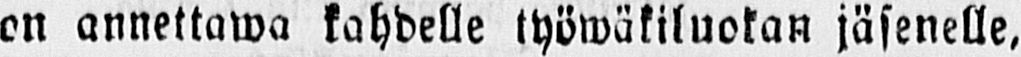on annettawa kahdelle työwäkiluokan jäsenelle,
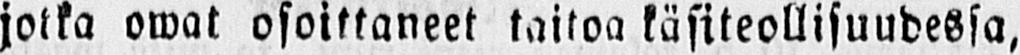jotka owat osoittaneet taitoa käsiteollisuudessa,
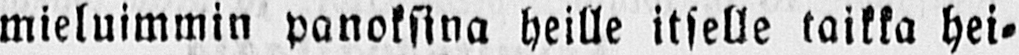mieluimmin panoksina heille itselle taikka hei-
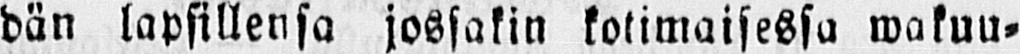dän lapsillensa jossakin kotimaisessa wakuu-
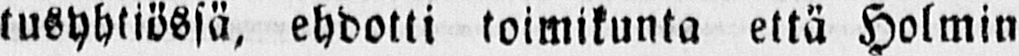tusyhtiössä, ehdotti toimikunta että Holmin
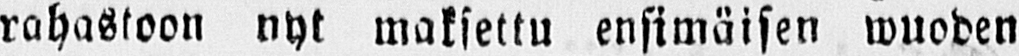rahastoon nyt maksettu ensimäisen wuoden
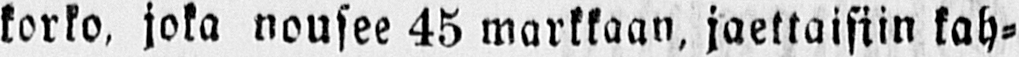korko, joka nousee 45 markkaan, jaettaisiin kah-
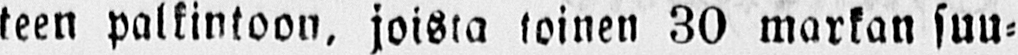teen palkintoon, joista toinen 30 markan suu-
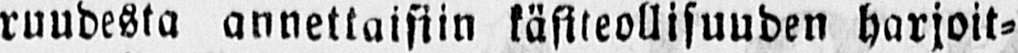ruudesta annettaisiin käsiteollisuuden harjoit-
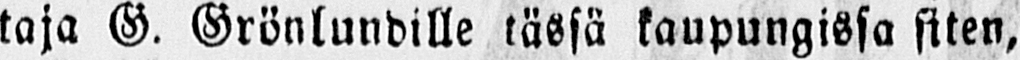taja G. Grönlundille tässä kaupungissa siten,
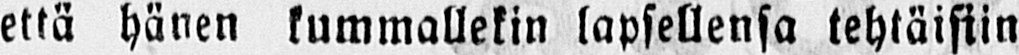että hänen kummallekin lapsellensa tehtäisiin
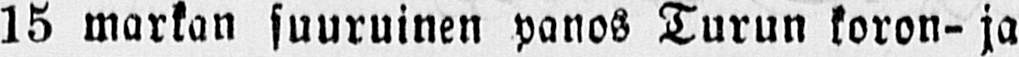15 markan suuruinen panos Turun koron-ja
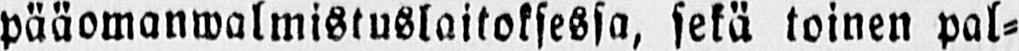pääomanwalmistuslaitoksessa, sekä toinen pal-
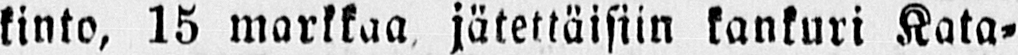kinto, 15 markkaa jätettäisiin kankuri Kata-
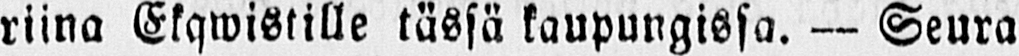riina Ekqwistille tässä kaupungissa. — Seura
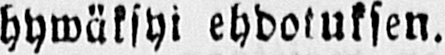hywäksyi ehdotuksen.
